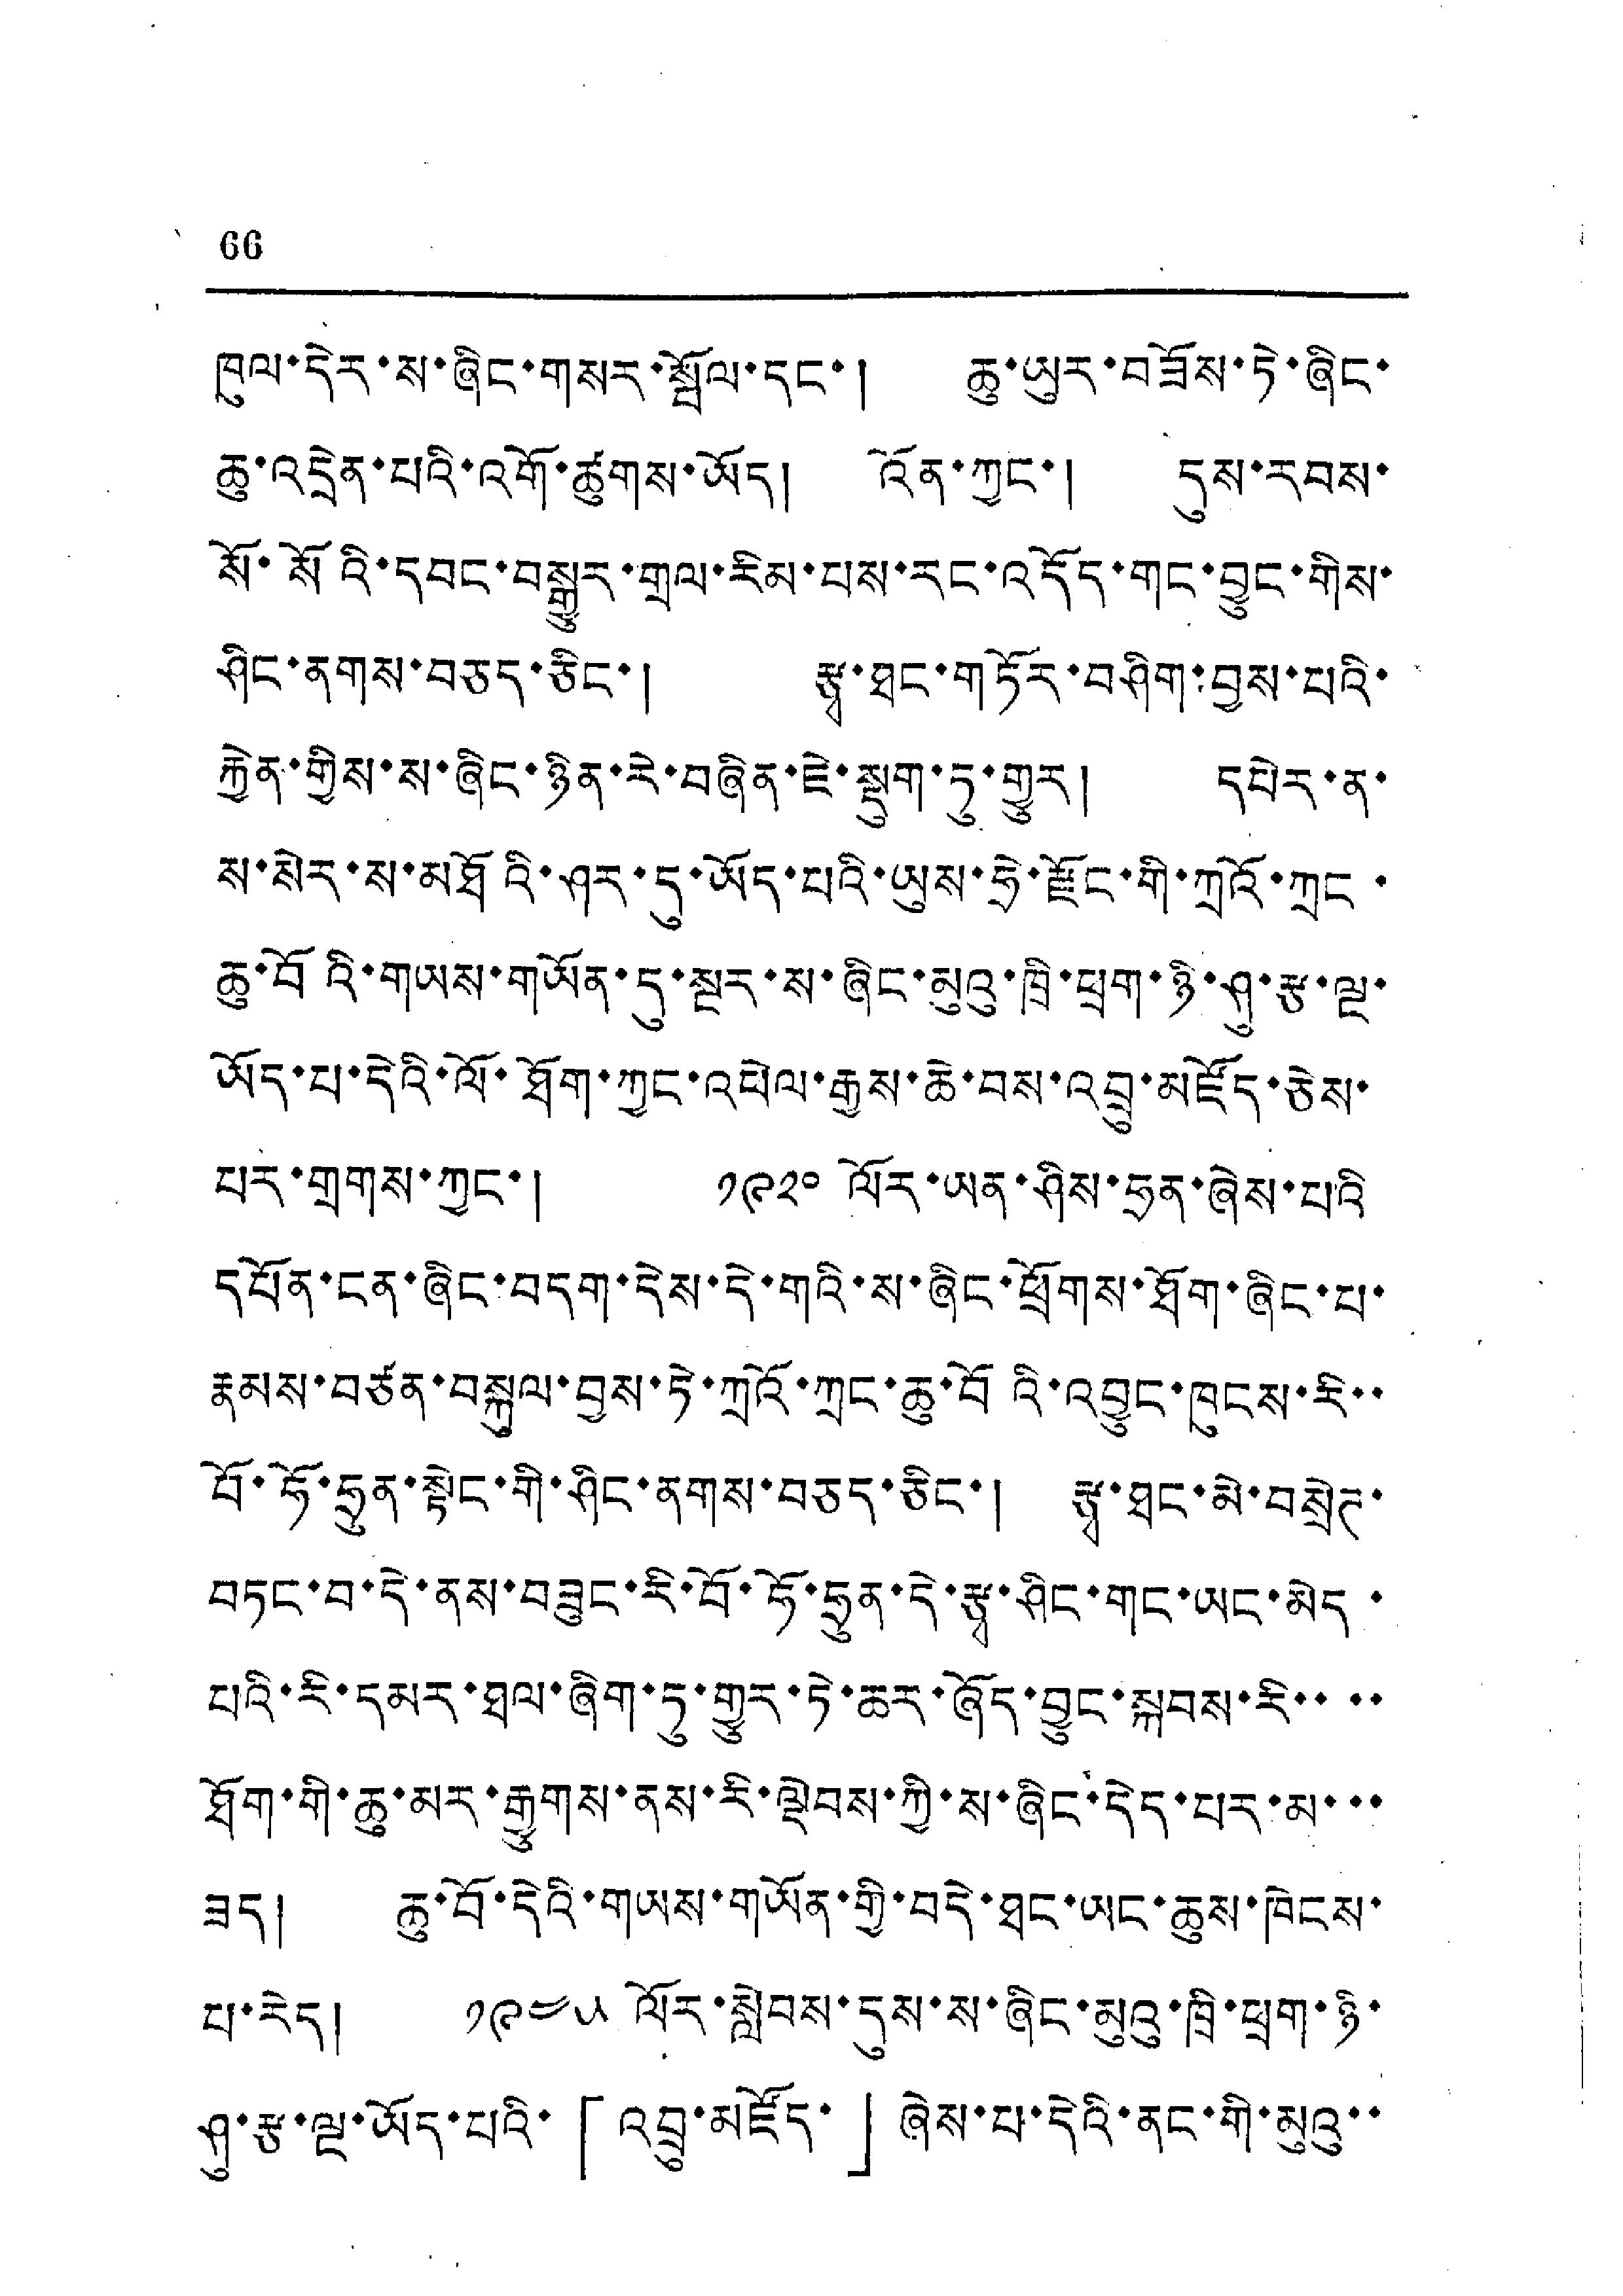66
ཁུལ་དེར་ས་ཞིང་གསར་སྦོལ་དང་། ཆུ་ཡུར་བཟོས་ཏེ་ཞིང་
ཆུ་འདྲེན་པའི་འགོ་ཚུགས་ཡོད། འོན་ཀྱང་། དུས་རབས་
སོ་སོའི་དབང་བསྒྱུར་གྲལ་རིམ་པས་རང་འདོད་གང་བྱུང་གིས་
ཤིང་ནགས་བཅད་ཅིང་། རྩྭ་ཐང་གཏོར་བཤིག་བྱས་པའི་
རྐྱེན་གྱིས་ས་ཞིང་ཉིན་རེ་བཞིན་ཇེ་སྡུག་ཏུ་གྱུར། དཔེར་ན་
ས་སེར་ས་མཐོའི་ཤར་དུ་ཡོད་པའི་ཡུས་ཧྲེ་རྫོང་གི་ཀྲའོ་ཀྲང་
ཆུ་བོའི་གཡས་གཡོན་དུ་སྔར་ས་ཞིང་མུའུ་ཁྲི་ཕྲག་ཉི་ཤུ་རྩ་ལྔ་
ཡོད་པ་དེའི་ལོ་ཐོག་ཀྱང་འཕེལ་རྒྱས་ཆེ་བས་འབྲུ་མཛོད་ཅེས་
པར་གྲགས་ཀྱང་། ༡༩༢༠ ལོར་ཡན་ཤིས་ཧྲན་ཞེས་པའི་
དཔོན་ངན་ཞིང་བདག་དེས་དེ་གའི་ས་ཞིང་ཕྲོགས་ཐོག་ཞིང་པ་
རྣམས་བཙན་བསྐུལ་བྱས་ཏེ་ཀྲའོ་ཀྲང་ཆུ་བོའི་འབྱུང་ཁུངས་རི་་
བོ་ཧོ་ཧྲུན་སྟེང་གི་ཤིང་ནགས་བཅད་ཅིང་། རྩྭ་ཐང་མེ་བསྲེཊ་
བཏང་བ་དེ་ནས་བཟུང་རི་བོ་ཧོ་ཧྲུན་དེ་རྩྭ་ཤིང་གང་ཡང་མེད་
པའི་རི་དམར་ཐལ་ཞིག་ཏུ་གྱུར་ཏེ་ཆར་ཞོད་བྱུང་སྐབས་རི་་་་
ཐོག་གི་ཆུ་མར་རྒྱུགས་ནས་རི་ལྡེབས་ཀྱི་ས་ཞིང་དེད་པར་མ་་་
ཟད། ཆུ་བོ་དེའི་གཡས་གཡོན་གྱི་བདེ་ཐང་ཡང་ཆུས་ཁེངས་
པ་རེད། ༡༩༤༥ ལོར་སླེབས་དུས་ས་ཞིང་མུའུ་ཁྲི་ཕྲག་ཉི་
ཤུ་རྩ་ལྔ་ཡོད་པའི་「འབྲུ་མཛོད་」ཞེས་པ་དེའི་ནང་གི་མུའུ་་
